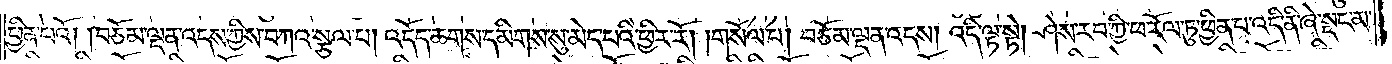ཕྱིན་པའོ། །བཅོམ་ལྡན་འདས་ཀྱིས་བཀའ་སྩལ་པ། འདོད་ཆགས་དམིགས་སུ་མེད་པའི་ཕྱིར་རོ། །གསོལ་པ། བཅོམ་ལྡན་འདས། འདི་ལྟ་སྟེ། ཤེས་རབ་ཀྱི་ཕ་རོལ་ཏུ་ཕྱིན་པ་འདི་ནི་ཞེ་སྡང་མ་
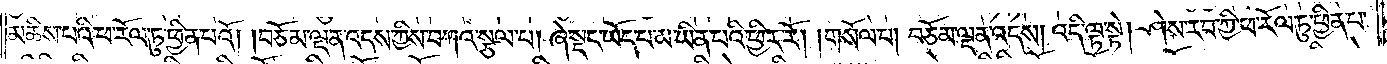མཆིས་པའི་ཕ་རོལ་ཏུ་ཕྱིན་པའོ། །བཅོམ་ལྡན་འདས་ཀྱིས་བཀའ་སྩལ་པ། ཞེ་སྡང་ཡོད་པ་མ་ཡིན་པའི་ཕྱིར་རོ། །གསོལ་པ། བཅོམ་ལྡན་འདས། འདི་ལྟ་སྟེ། ཤེས་རབ་ཀྱི་ཕ་རོལ་ཏུ་ཕྱིན་པ་
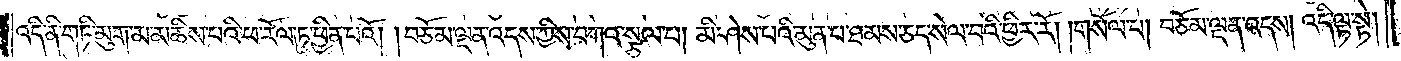འདི་ནི་གཏི་མུག་མ་མཆིས་པའི་ཕ་རོལ་ཏུ་ཕྱིན་པའོ། །བཅོམ་ལྡན་འདས་ཀྱིས་བཀའ་སྩལ་པ། མི་ཤེས་པའི་མུན་པ་ཐམས་ཅད་སེལ་བའི་ཕྱིར་རོ། །གསོལ་པ། བཅོམ་ལྡན་འདས། འདི་ལྟ་སྟེ།
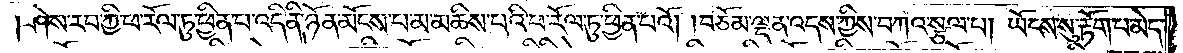ཤེས་རབ་ཀྱི་ཕ་རོལ་ཏུ་ཕྱིན་པ་འདི་ནི་ཉོན་མོངས་པ་མ་མཆིས་པའི་ཕ་རོལ་ཏུ་ཕྱིན་པའོ། །བཅོམ་ལྡན་འདས་ཀྱིས་བཀའ་སྩལ་པ། ཡོངས་སུ་རྟོག་པ་མེད་
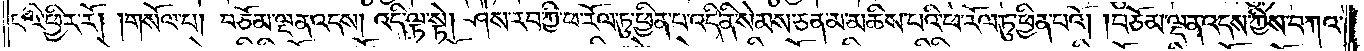པའི་ཕྱིར་རོ། །གསོལ་པ། བཅོམ་ལྡན་འདས། འདི་ལྟ་སྟེ། ཤེས་རབ་ཀྱི་ཕ་རོལ་ཏུ་ཕྱིན་པ་འདི་ནི་སེམས་ཅན་མ་མཆིས་པའི་ཕ་རོལ་ཏུ་ཕྱིན་པའོ། །བཅོམ་ལྡན་འདས་ཀྱིས་བཀའ་
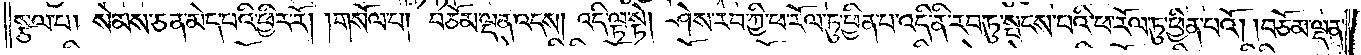སྩལ་པ། སེམས་ཅན་མེད་པའི་ཕྱིར་རོ། །གསོལ་པ། བཅོམ་ལྡན་འདས། འདི་ལྟ་སྟེ། ཤེས་རབ་ཀྱི་ཕ་རོལ་ཏུ་ཕྱིན་པ་འདི་ནི་རབ་ཏུ་སྤངས་པའི་ཕ་རོལ་ཏུ་ཕྱིན་པའོ། །བཅོམ་ལྡན་
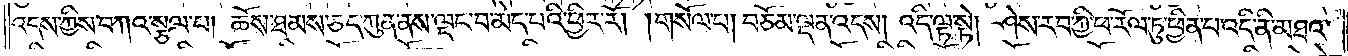འདས་ཀྱིས་བཀའ་སྩལ་པ། ཆོས་ཐམས་ཅད་ཀུན་ནས་ལྡང་བ་མེད་པའི་ཕྱིར་རོ། །གསོལ་པ། བཅོམ་ལྡན་འདས། འདི་ལྟ་སྟེ། ཤེས་རབ་ཀྱི་ཕ་རོལ་ཏུ་ཕྱིན་པ་འདི་ནི་མཐའ་
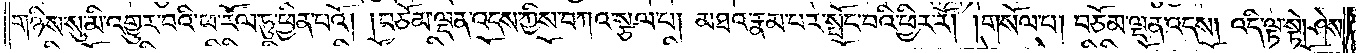གཉིས་སུ་མི་འགྱུར་བའི་ཕ་རོལ་ཏུ་ཕྱིན་པའོ། །བཅོམ་ལྡན་འདས་ཀྱིས་བཀའ་སྩལ་པ། མཐའ་རྣམ་པར་སྤོང་བའི་ཕྱིར་རོ། །གསོལ་པ། བཅོམ་ལྡན་འདས། འདི་ལྟ་སྟེ། ཤེས་
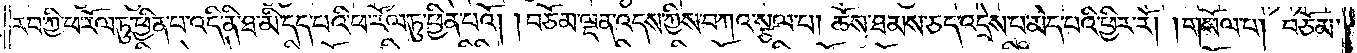རབ་ཀྱི་ཕ་རོལ་ཏུ་ཕྱིན་པ་འདི་ནི་ཐ་མི་དད་པའི་ཕ་རོལ་ཏུ་ཕྱིན་པའོ། །བཅོམ་ལྡན་འདས་ཀྱིས་བཀའ་སྩལ་པ། ཆོས་ཐམས་ཅད་འདྲེས་པ་མེད་པའི་ཕྱིར་རོ། །གསོལ་པ། བཅོམ་
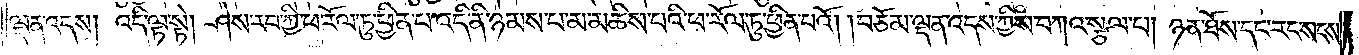ལྡན་འདས། འདི་ལྟ་སྟེ། ཤེས་རབ་ཀྱི་ཕ་རོལ་ཏུ་ཕྱིན་པ་འདི་ནི་ཉམས་པ་མ་མཆིས་པའི་ཕ་རོལ་ཏུ་ཕྱིན་པའོ། །བཅོམ་ལྡན་འདས་ཀྱིས་བཀའ་སྩལ་པ། ཉན་ཐོས་དང་རང་སངས་
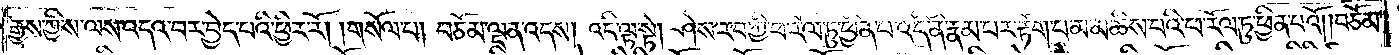རྒྱས་ཀྱི་ས་ལས་འདའ་བར་བྱེད་པའི་ཕྱིར་རོ། །གསོལ་པ། བཅོམ་ལྡན་འདས། འདི་ལྟ་སྟེ། ཤེས་རབ་ཀྱི་ཕ་རོལ་ཏུ་ཕྱིན་པ་འདི་ནི་རྣམ་པར་རྟོག་པ་མ་མཆིས་པའི་ཕ་རོལ་ཏུ་ཕྱིན་པའོ། །བཅོམ་
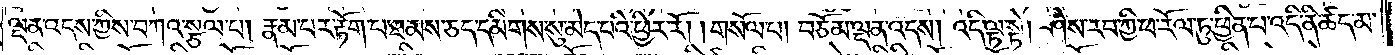ལྡན་འདས་ཀྱིས་བཀའ་སྩལ་པ། རྣམ་པར་རྟོག་པ་ཐམས་ཅད་དམིགས་སུ་མེད་པའི་ཕྱིར་རོ། །གསོལ་པ། བཅོམ་ལྡན་འདས། འདི་ལྟ་སྟེ། ཤེས་རབ་ཀྱི་ཕ་རོལ་ཏུ་ཕྱིན་པ་འདི་ནི་ཚད་མ་
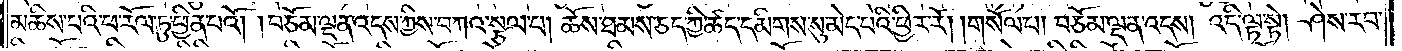མཆིས་པའི་ཕ་རོལ་ཏུ་ཕྱིན་པའོ། །བཅོམ་ལྡན་འདས་ཀྱིས་བཀའ་སྩལ་པ། ཆོས་ཐམས་ཅད་ཀྱི་ཚད་དམིགས་སུ་མེད་པའི་ཕྱིར་རོ། །གསོལ་པ། བཅོམ་ལྡན་འདས། འདི་ལྟ་སྟེ། ཤེས་རབ་
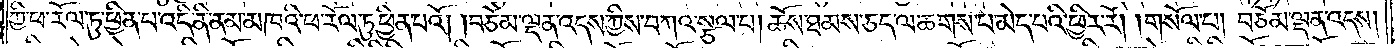ཀྱི་ཕ་རོལ་ཏུ་ཕྱིན་པ་འདི་ནི་ནམ་མཁའི་ཕ་རོལ་ཏུ་ཕྱིན་པའོ། །བཅོམ་ལྡན་འདས་ཀྱིས་བཀའ་སྩལ་པ། ཆོས་ཐམས་ཅད་ལ་ཆགས་པ་མེད་པའི་ཕྱིར་རོ། །གསོལ་པ། བཅོམ་ལྡན་འདས།
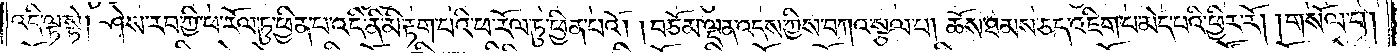འདི་ལྟ་སྟེ། ཤེས་རབ་ཀྱི་ཕ་རོལ་ཏུ་ཕྱིན་པ་འདི་ནི་མི་རྟག་པའི་ཕ་རོལ་ཏུ་ཕྱིན་པའོ། །བཅོམ་ལྡན་འདས་ཀྱིས་བཀའ་སྩལ་པ། ཆོས་ཐམས་ཅད་འཇིག་པ་མེད་པའི་ཕྱིར་རོ། །གསོལ་པ།
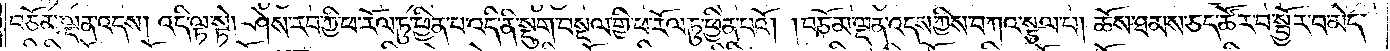བཅོམ་ལྡན་འདས། འདི་ལྟ་སྟེ། ཤེས་རབ་ཀྱི་ཕ་རོལ་ཏུ་ཕྱིན་པ་འདི་ནི་སྡུག་བསྔལ་གྱི་ཕ་རོལ་ཏུ་ཕྱིན་པའོ། །བཅོམ་ལྡན་འདས་ཀྱིས་བཀའ་སྩལ་པ། ཆོས་ཐམས་ཅད་ཚོར་བར་སྦྱོར་བ་མེད་
